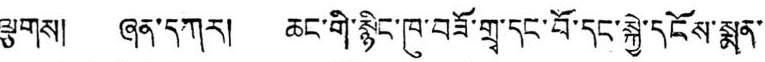ལྕགས། ཞན་དཀར། ཆང་གི་སྙིང་ཁུ་བཟོ་གྲྭ་དང་བོ་དང་སྐྱེ་དངོས་སྨན་
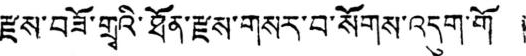རྫས་བཟོ་གྲྭའི་ཐོན་རྫས་གསར་བ་སོགས་འདུག་གོ །
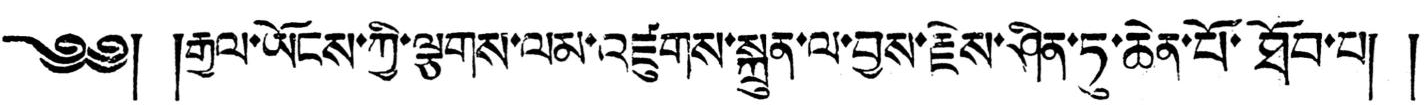༄༅། །རྒྱལ་ཡོངས་ཀྱི་ལྕགས་ལམ་འཛུགས་སྐྲུན་ལ་བྱས་རྗེས་ཤིན་ཏུ་ཆེན་པོ་ཐོབ་པ། །
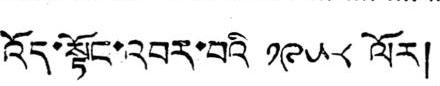འོད་སྟོང་འབར་བའི ༡༩༥༨ ལོར།
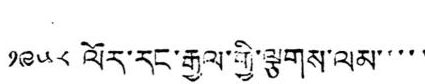༡༩༥༨ ལོར་རང་རྒྱལ་གྱི་ལྕགས་ལམ་་་་་
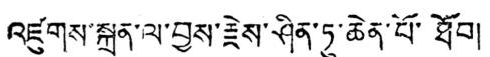འཛུགས་སྐྲུན་ལ་བྱས་རྗེས་ཤིན་ཏུ་ཆེན་པོ་ཐོབ།
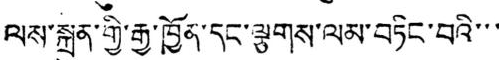ལས་སྐྲུན་གྱི་རྒྱ་ཁྱོན་དང་ལྕགས་ལམ་བཏིང་བའི་་་
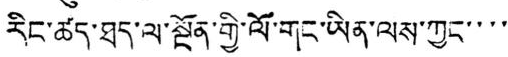རིང་ཚད་ཐད་ལ་སྔོན་གྱི་ལོ་གང་ཡིན་ལས་ཀྱང་་་་
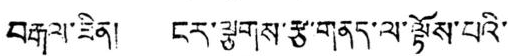བརྒལ་ཟིན། ངར་ལྕགས་རྩ་གནད་ལ་ལྟོས་པའི་
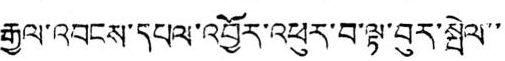རྒྱལ་འབངས་དཔལ་འབྱོར་འཕུར་བ་ལྟ་བུར་སྤེལ་་
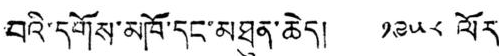བའི་དགོས་མཁོ་དང་མཐུན་ཆེད། ༡༩༥༨ ལོར་
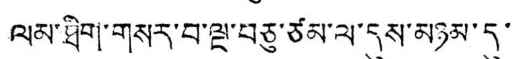ལམ་ཐིག་གསར་བ་ལྔ་བཅུ་ཙམ་ལ་དུས་མཉམ་དུ་
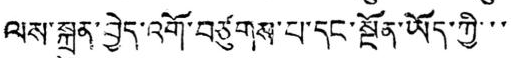ལས་སྐྲུན་བྱེད་འགོ་བཙུགས་པ་དང་སྔོན་ཡོད་ཀྱི་་་
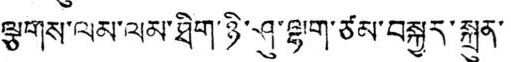ལྕགས་ལམ་ལམ་ཐིག་ཉི་ཤུ་ལྷག་ཙམ་བསྐྱར་སྐྲུན་
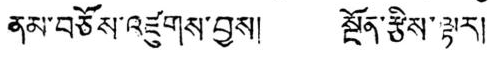ནམ་བཅོས་འཛུགས་བྱས། སྔོན་རྩིས་ལྟར།
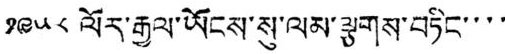༡༩༥༨ ལོར་རྒྱལ་ཡོངས་སུ་ལམ་ལྕགས་བཏིང་་་་
